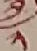༢
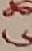༦
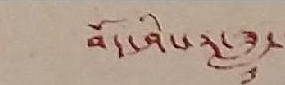བོད་ཤིང་རྟ་ཟླ་
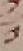༡
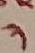༢
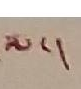ལ་།
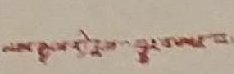མེས་རྒྱལ་གི་
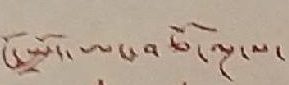ངོ་སྤྲོད་ཨང་བཅོ་ལྔ་པ་
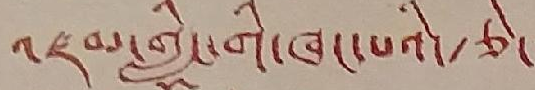འཛམ་གླིང་གི་ཁང་པའི་རྩེ་
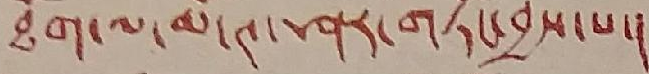ཐོག་ལ་མོ་ཊ་ཤར་གཏོང་བྱས་པ་།
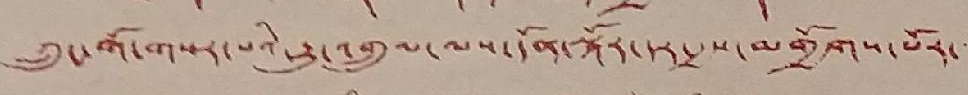ཀྲུང་གོ་གསར་པའི་རྒྱུ་འགྲུལ་ལས་དོན་སྐོར་དར་རྒྱས་མགྱོགས་པོར་་་་
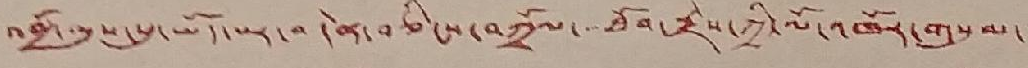འགྲོ་མུས་དུ་ཡོད་པར་བདེན་བཅིངས་བཀྲོལ་་་ཐོབ་རྗེས་ཀྱི་ལོ་འཁོར་གསུམ་
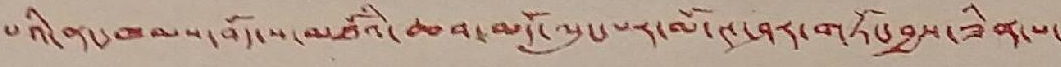པའི་ནང་ཁམས་བོད་ས་མཐོའི་ཆབ་མདོ་ལུང་པར་མོ་ཊ་ཤར་གཏོང་བྱས་ཟིན་པ་
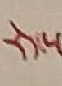རེད་།
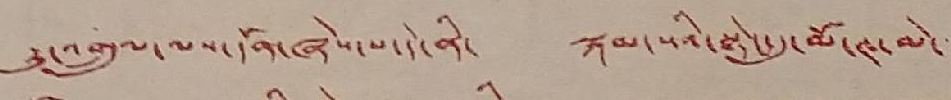རྒྱུ་འགྲུལ་ལས་དོན་ཞེས་པ་དེ་ནི་ སྐམ་སའི་སྟེང་དུ་མོ་ཊ་མེ་་་་
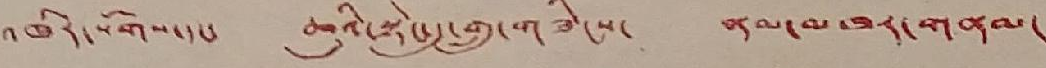འཁོར་སོགས་དང་ ཆུའི་སྟེང་དུ་གྲུ་གཟིངས་ ནམ་མཁར་གནམ་
